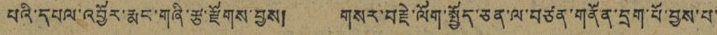པའི་དཔལ་འབྱོར་རྨང་གཞི་རྩ་རྫོགས་བྱས། གསར་བརྗེ་ལོག་སྤྱོད་ཅན་ལ་བཙན་གནོན་དྲག་པོ་བྱས་པ་
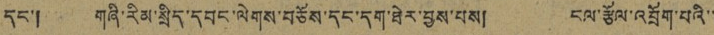དང་། གཞི་རིམ་སྲིད་དབང་ལེགས་བཅོས་དང་དག་ཐེར་བྱས་པས། ངལ་རྩོལ་འབྲོག་པའི་་
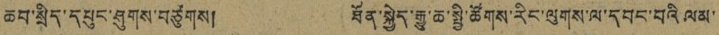ཆབ་སྲིད་དཔུང་ཤུགས་བཙུགས། ཐོན་སྐྱེད་རྒྱུ་ཆ་སྤྱི་ཚོགས་རིང་ལུགས་ལ་དབང་བའི་ལམ་
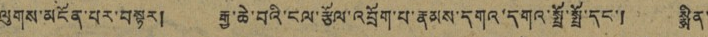ལུགས་མངོན་པར་བསྟར། རྒྱ་ཆེ་བའི་ངལ་རྩོལ་འབྲོག་པ་རྣམས་དགའ་དགའ་སྤྲོ་སྤྲོ་དང་། སྨིན་
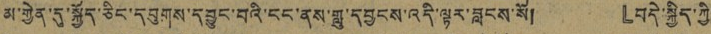མ་གྱེན་དུ་སྐྱོད་ཅིང་དབུགས་དབྱུང་བའི་ངང་ནས་གླུ་དབྱངས་འདི་ལྟར་བླངས་སོ། 『བདེ་སྐྱིད་ཀྱི་
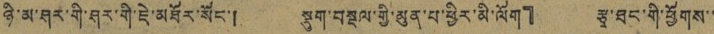ཉི་མ་ཤར་གི་ཤར་གི་ཇེ་མཐོར་སོང་། སྡུག་བསྔལ་གྱི་མུན་པ་ཕྱིར་མི་ལོག』 རྩྭ་ཐང་གི་ཕྱོགས་
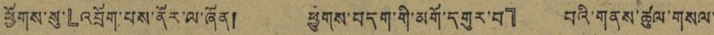ཕྱོགས་སུ་『འབྲོག་བས་ནོར་ལ་ཞོན། ཕྱུགས་བདག་གི་མགོ་དགུར་བ』 བའི་གནས་ཚུལ་གསལ་
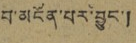བ་མངོན་པར་བྱུང་།
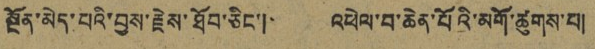སྔོན་མེད་པའི་བྱས་རྗེས་ཐོབ་ཅིང་། འཕེལ་བ་ཆེན་པོའི་མགོ་ཚུགས་པ།
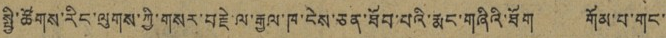སྤྱི་ཚོགས་རིང་ལུགས་ཀྱི་གསར་བརྗེ ལ་རྒྱལ་ཁ་ངེས་ཅན་ཐོབ་པའི་རྨང་གཞིའི་ཐོག གོམ་པ་གང་
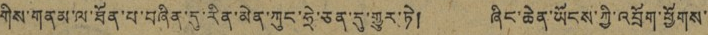གིས་གནམ་ལ་ཐོན་བཞིན་དུ་རིན་མེན་ཀུང་ཧྲེ་ཅན་དུ་གྱུར་ཏེ། ཞིང་ཆེན་ཡོངས་ཀྱི་འབྲོག་ཕྱོགས་
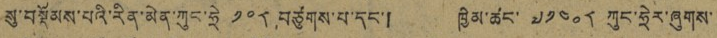སུ་བསྡོམས་པའི་རིན་མེན་ཀུང་ཧྲེ ༡༠༨ བཙུགས་པ་དང་། ཁྱིམ་ཚང་ ༧༡༤༠༨ ཀུང་ཧྲེར་ཞུགས་
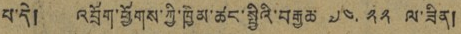པ་དེ། འབྲོག་ཕྱོགས་ཀྱི་ཁྱིམ་ཚང་སྤྱིའི་བརྒྱཆ་ ༧༤.༢༢ ལ་ཟིན།
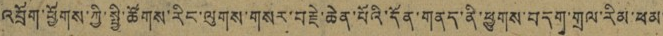འབྲོག་ཕྱོགས་ཀྱི་སྤྱི་ཚོགས་རིང་ལུགས་གསར་བརྗེ་ཆེན་པོའི་དོན་གནད་ནི་ཕྱུགས་བདག་གྲལ་རིམ་ཕམ་
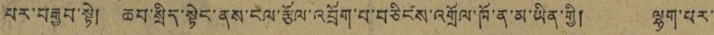པར་བརྒྱབ་སྟེ། ཆབ་སྲིད་སྟེང་ནས་ངལ་རྩོལ་འབྲོག་པ་བཅིངས་འགྲོལ་ཁོ་ན་མ་ཡིན་གྱི། ལྷག་པར་
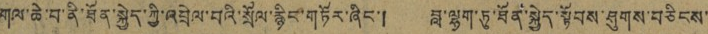གལ་ཆེ་བ་ནི་ཐོན་སྐྱེད་ཀྱི་འབྲེལ་བའི་སྲོལ་རྙིང་གཏོར་ཞིང་། བླ་ལྷག་ཏུ་ཐོན་སྐྱེད་སྟོབས་ཤུགས་བཅིངས་
